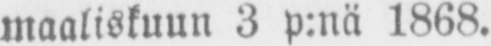maaliskuun 3 p:nä 1868.
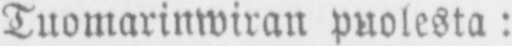Tuomarinwiran puolesta:
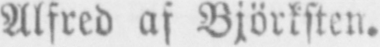Alfred af Björksten.
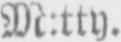M:tty.
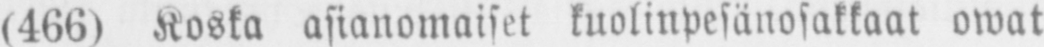(466) Koska asianomaiset kuolinpesänosakkaat owat
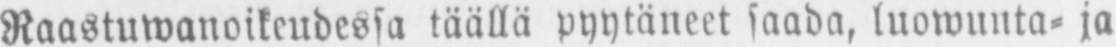Raastuwanoikeudessa täällä pyytäneet saada, luowunta- ja
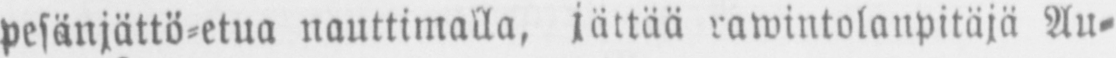pesänjättö-etua nauttimalla, j ä tt ää rawintolanpit ä j ä Au-
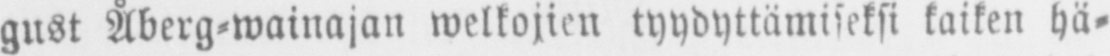gust Åberg-wainajan welkojien tyydyttämiseksi kaiken hä-
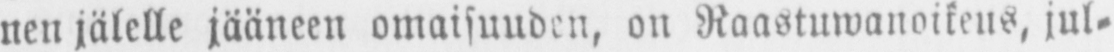nen jälelle jääneen omaisuuden, on Raastuwanoikeus, jul-
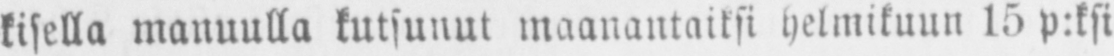kisella manuulla kutsunut maanantaiksi helmikuun 15 p:ksi
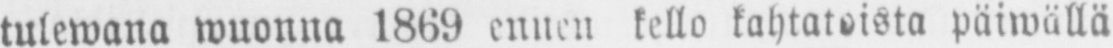tulewana wuonna 1869 ennen kello kahtatoista päiwällä
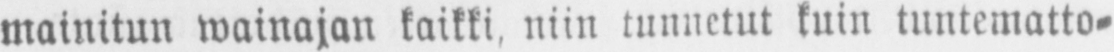mainitun wainajan kaikki, niin tunnetut kuin tuntematto-
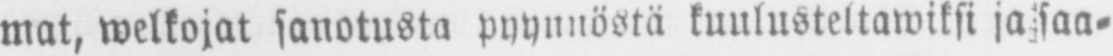mat, welkojat sanotusta pyynnöstä kuulusteltawiksi ja saa-
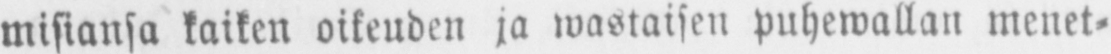misiansa kaiken oikeuden ja wastaisen puhewallan menet-
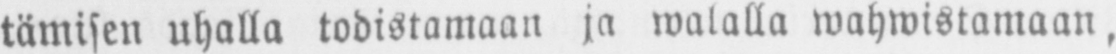tämisen uhalla todistamaan ja walalla wahwistamaan,
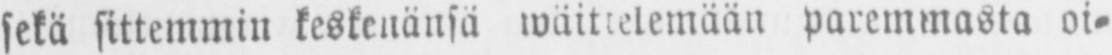sekä sittemmin keskenänsä wäittelemään paremmasta oi-
